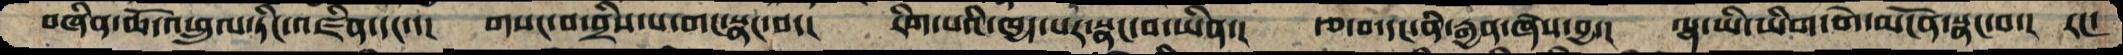བཞིན་ཆོ་འཕྲུལ་ཏིང་འཛིན་དང་་།   གསང་བ་བྲིས་པ་གང་སྣང་བ་།  རིག་པའི་ཁྱད་པར་སྣང་བ་ཡིན་།  རྩ་བ་དང་ནི་རྒྱན་ཞེས་བྱ་།  ལྷ་ཡི་ཡིག་གེ་མངོན་སྣང་བ་།  རང་
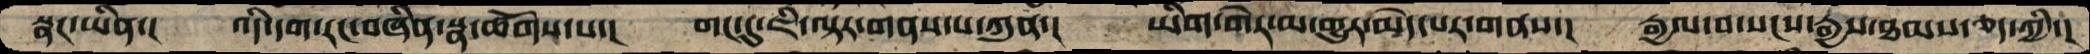སྣང་ཡིན་།   འདི་དག་རང་བཞིན་སྣ་ཚོགས་པ་།   གང་དུ་ཇི་ལྟར་གནས་པ་ཀུན་།   ཡིག་གེར་མ་གྱུར་མེད་པར་གནས་།   རྒྱལ་བ་སངས་རྒྱས་ཐམས་ཅད་ཀྱི་།
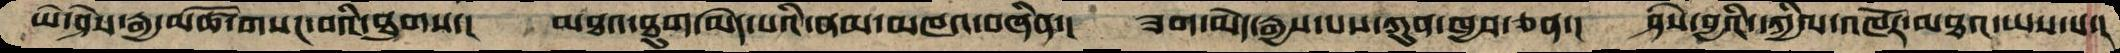ཡེ་ཤེས་རྒྱ་མཚོ་གསང་བའི་ཐུགས་།  མཐའ་ཐུག་མེད་པའི་ནམ་མཁའ་བཞིན་།  ཟག་མེད་རྒྱས་པས་ཀུན་ཁྱབ་ཅན་།  ཤེས་བྱའི་དཀྱིལ་འཁོར་མཐའ་ཡས་པ་།
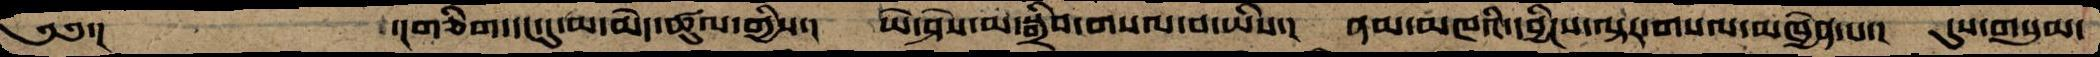༄༅་།       ་།གཅིག་དང་དུ་མ་མེད་ཚུལ་གྱིས་།   ཡེ་ཤེས་མ་སྒྲིབ་གསལ་བ་ཡིས་།  ནམ་མཁའི་དབྱིངས་ལྟར་གསལ་མཁྱེན་པ་།  དུས་གསུམ་
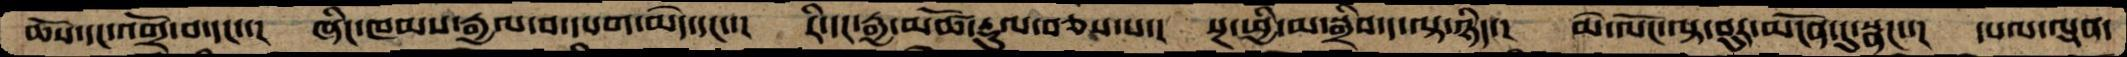ཆོས་དང་འགྲོ་བ་དང་་།  ཞིང་ཁམས་རྒྱལ་བ་དཔག་མེད་དང་་།  རི་དང་རྒྱ་མཚོ་རྡུལ་བཅས་པ་།  སྔ་ཕྱི་མ་སྒྲིབ་ད་ལྟ་ཉིད་།  མེ་ལོང་ལྟ་བུར་མངོན་དུ་སྣང་་།  དཔལ་ལྡན་
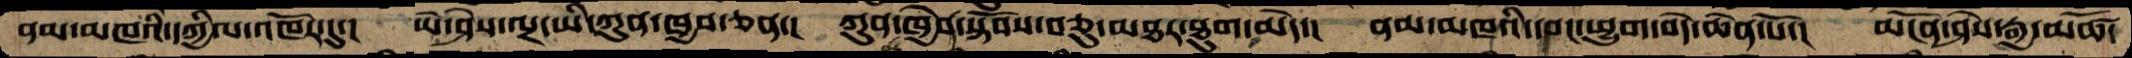ནམ་མཁའི་དཀྱིལ་འཁོར་དུ་།  ཡེ་ཤེས་ལྔ་ཡི་ཀུན་ཁྱབ་ཅན་།  ཀུན་མཁྱེན་སྟོབས་བཅུ་མཐར་ཐུག་མེད་།  ནམ་མཁའི་དབང་ཕྱུག་བདེ་ཆེན་པོ་།  མངོན་ཤེས་རྒྱ་མཚོ་
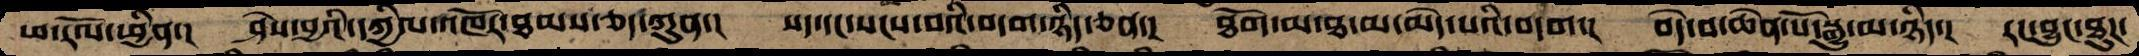ཕ་རོལ་ཕྱིན་།  ཤེས་བྱའི་དཀྱིལ་འཁོར་ཐམས་ཅད་ཀུན་།  སད་དང་སངས་བའི་བདག་ཉིད་ཅན་།  ཐོག་མ་ཐ་མ་མེད་པའི་བདག་།  བདེ་བ་ཆེན་པོ་སྒྱུ་མ་ཉིད་།  རང་བྱུང་ཐུཌ
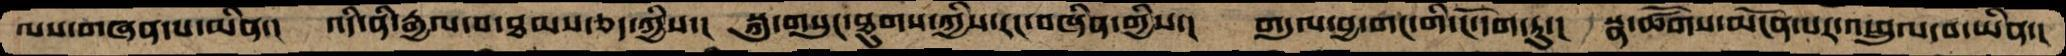ལས་གཞན་པ་མིན་།  འདི་ནི་རྒྱལ་བ་ཐབས་ཅད་ཀྱིས་།   སྐུ་གསུང་ཐུགས་ཀྱིས་རང་བཞིན་གྱིས་།  གདུལ་བྱ་གང་གི་ངོ་དག་ཏུ་།  སྣ་ཚོགས་མངོན་པར་འཕྲུལ་བ་ཡིན་།
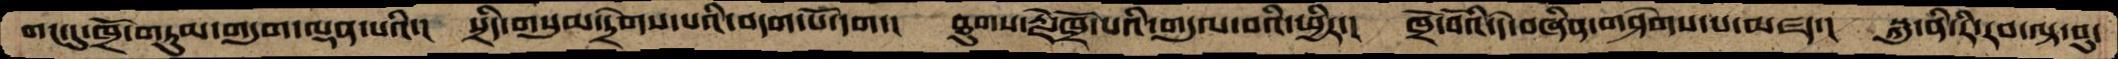གང་དུ་ཁྲོ་གཏུམ་གདུག་ལྡན་པའི་།  སྲིད་གསུམ་དྲེགས་པའི་བདག་པོ་དག་།  ཐུགས་རྗེ་ཁྲོ་པའི་གདུལ་བའི་ཕྱིར་།  ཁྲོ་བོའི་དེ་བཞིན་གཤེགས་པ་མཛད་།  སྐུ་ནི་རི་རབ་ལྟ་བུ་
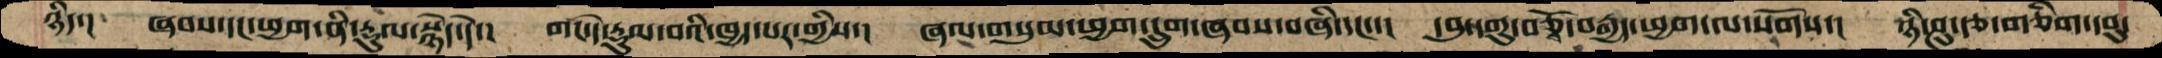ཉིད་།  ཞབས་དང་ཕྱག་ནི་རྡུལ་སྙེད་དེ་།  གང་དེ་རྡུམ་བའི་ཁྱད་པར་གྱིས་།  ཞལ་གསུམ་ཕྱག་དྲུག་ཞབས་བཞི་དང་་།  དབུ་དགུ་བཅྭོ་བརྒྱད་ཕྱག་ལ་སོགས་།  ཉི་ཤུ་རྩ་གཅིག་དབུ་
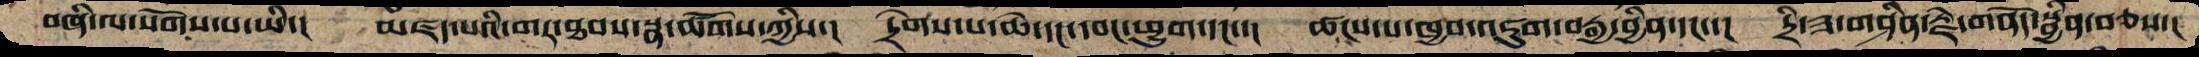བཞི་ལ་སོགས་པ་ཡི་།  མཛད་པའི་གར་ཐབས་སྣ་ཚོགས་ཀྱིས་།  དྲེགས་པ་ཆེ་དང་དབང་ཕྱུག་དང་་།  ཚངས་པ་ཁྱབ་འཇུག་བརྒྱ་བྱིན་དང་་།  དྲི་ཟ་གཤིན་རྗེ་གནོད་སྦྱིན་བཅས་།
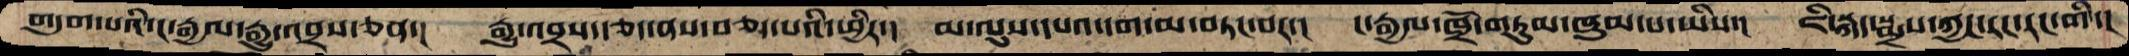གདུག་པའི་ང་རྒྱལ་རྒྱུ་འབྲས་ཅན་།  རྒྱུ་འབྲས་རྩད་ནས་བཅད་པའི་ཕྱིར་།  མ་ལུས་དཔའ་དག་མ་བཏང་པར་།  ང་རྒྱལ་ཁྲོ་གཏུམ་ཞུམ་པ་ཡིས་།  ཇི་སྐད་སྨྲས་ཀྱང་རང་རང་གི་།
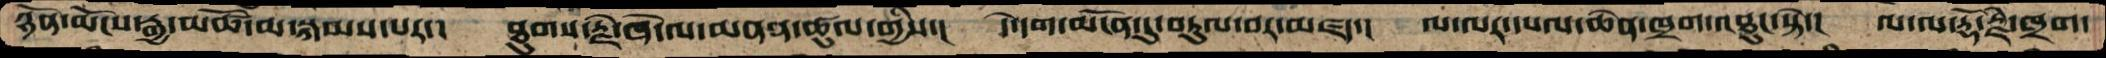ཉོན་མོངས་རྒྱ་མཚོ་མ་སྐམས་པར་།  ཐུགས་རྗེ་ཞེ་ལ་མནན་ཚུལ་གྱིས་།  དེ་དག་མངོན་དུ་བཏུལ་བར་མཛད་།  ལ་ལར་དཔལ་ཆེན་ཁྲག་འཐུང་སྟེ་།  ལ་ལ་རྡོ་རྗེ་ཁྲག་
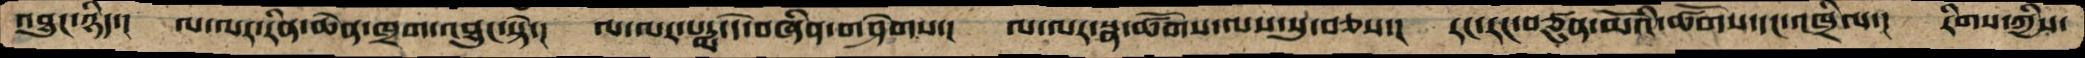འབྱུང་ཉིད་།  ལ་ལར་རིན་ཆེན་ཁྲག་འཐུང་སྟེ་།  ལ་ལར་པདྨ་དེ་བཞིན་གཤེགས་།  ལ་ལར་སྣ་ཚོགས་ལས་སུ་བཅས་།  རང་རང་བཙུན་མོའི་ཚོགས་དང་འཁྲིལ་།  རིགས་ཀྱིས་
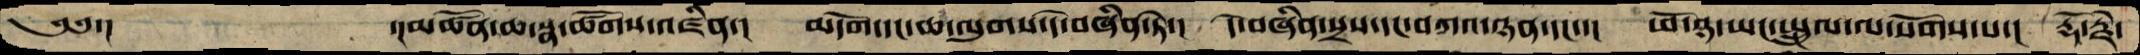༄༅་།     ་།མཚོན་ཆ་སྣ་ཚོགས་འཛིན་།  མདོག་དང་ཆ་ལུགས་དེ་བཞིན་ཏེ་།  དེ་བཞིན་སྲས་དང་བཀའ་ཉན་དང་་།  ཕོ་ཉ་ཡང་སྤྲུལ་ལ་སོགས་པ་།  རྡོ་རྗེ་
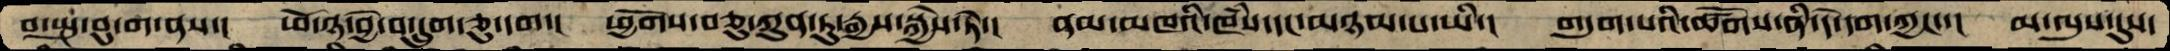བ་སྤུ་བུ་ག་ནས་།  ཕོ་ཉ་བྱེ་བ་དྲུག་ཅུ་དག་།  ཕྱོགས་བཅུ་ཀུན་ཏུ་རྒྱས་སྐྱེས་ཏེ་།  ནམ་མཁའི་ཁཾས་དང་མཉམ་པ་ཡི་།  གདུག་པའི་ཚོགས་ནི་དེ་དག་ཀྱང་་། མ་ལུས་དུས་
